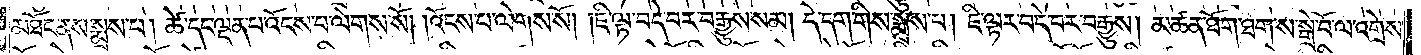མཐོང་ནས་སྨྲས་པ། ཚེ་དང་ལྡན་པ་འོངས་པ་ལེགས་སོ། །འོངས་པ་ལེགས་སོ། །ཇི་ལྟ་བདེ་བར་བརྒྱུས་སམ། དེ་དག་གིས་སྨྲས་པ། ཇི་ལྟར་བདེ་བར་བརྒྱུས། མཚན་ཐོག་ཐག་ས་སྒྲེ་བོ་ལ་འགྲེས་
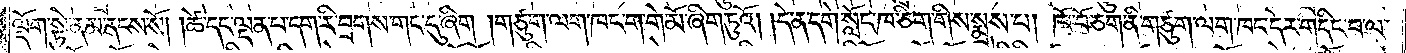ལྡོག་སྟེ་ནམ་ནངས་སོ། །ཚེ་དང་ལྡན་པ་དག་རི་བྲགས་གང་དུ་ཞིག །གཙུག་ལག་ཁང་གེ་མོ་ཞིག་ཏུའོ། །དེ་ན་དགེ་སློང་ཁ་ཅིག་གིས་སྨྲས་པ། ཁོ་བོ་ཅག་ནི་གཙུག་ལག་ཁང་དེར་གདིང་བ་ལ་
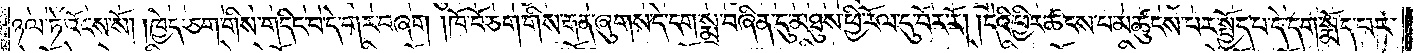ཉལ་ཏེ་འོངས་སོ། །ཁྱེད་ཅག་གིས་གདིང་བ་དེ་གར་བཞག །ཁོ་བོ་ཅག་གིས་རྒན་ཞུགས་དེ་དག་སྨྲ་བཞིན་དུ་མཐུས་ཕྱི་རོལ་དུ་བོར་རོ། །དེའི་ཕྱིར་ཚངས་པ་མཚུངས་པར་སྤྱོད་པ་དེ་དག་སྨོད་པར་
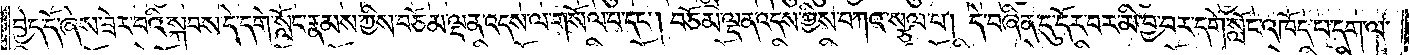བྱེད་དོ་ཞེས་ཟེར་བའི་སྐབས་དེ་དགེ་སློང་རྣམས་ཀྱིས་བཅོམ་ལྡན་འདས་ལ་གསོལ་པ་དང༌། བཅོམ་ལྡན་འདས་ཀྱིས་བཀའ་སྩལ་པ། དེ་བཞིན་དུ་དོར་བར་མི་བྱ་བར་དགེ་སློང་འཁོད་པ་དག་ལ་
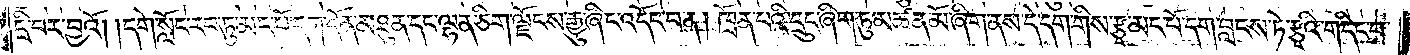དྲི་བར་བྱའོ། །དགེ་སློང་རབ་ཏུ་མང་པོ་དག་དོན་མཐུན་དང་ལྷན་ཅིག་ལྗོངས་རྒྱུ་ཞིང་འདོང་བ་ན། ཁྲོན་པའི་དྲུང་ཞིག་ཏུ་མཚན་མོ་ཞིག་ནས་དེ་དག་གིས་རྩྭ་མང་པོ་དག་བླངས་ཏེ་རྩྭའི་གདིང་བ་
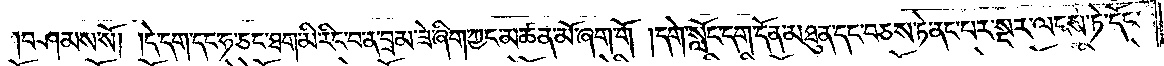བཤམས་སོ། །དེ་དག་དང་ཧ་ཅང་ཐག་མི་རིང་བ་ན་བྲམ་ཟེ་ཞིག་ཀྱང་མཚན་མོ་ཞག་གོ །དགེ་སློང་དག་དོན་མཐུན་དང་བཅས་ཏེ་ནང་པར་སྔར་ལངས་ཏེ་དོང་
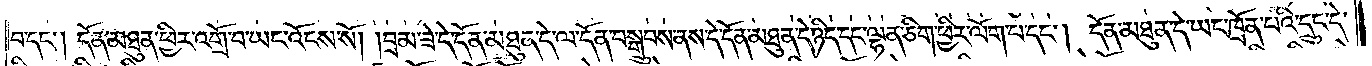བ་དང༌། དོན་མཐུན་ཕྱིར་འགྲོ་བ་ཡང་འོངས་སོ། །བྲམ་ཟེ་དེ་དོན་མཐུན་དེ་ལ་དོན་བསྒྲུབས་ནས་དེ་དོན་མཐུན་དེ་ཉིད་དང་ལྷན་ཅིག་ཕྱིར་ལོག་པ་དང༌། དོན་མཐུན་དེ་ཡང་ཁྲོན་པའི་དྲུང་དེ་
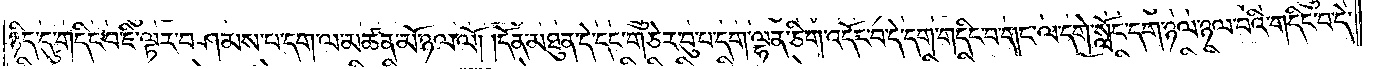ཉིད་དུ་གདིང་བ་ཇི་ལྟར་བཤམས་པ་དག་ལ་མཚན་མོ་ཉལ་ལོ། །དོན་མཐུན་དེ་དང་གཅེར་བུ་པ་དག་ལྷན་ཅིག་འདོང་བ་དེ་དག་གདིང་བ་གང་ལ་དགེ་སློང་དག་ཉལ་ཉལ་བའི་གདིང་བ་དེ་
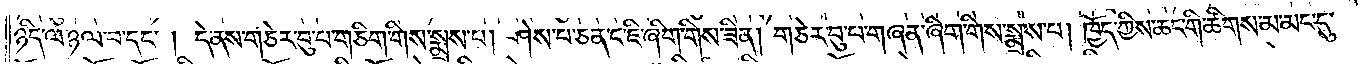ཉིད་ལ་ཉལ་བ་དང༌། དེ་ནས་གཅེར་བུ་པ་གཅིག་གིས་སྨྲས་པ། ཤེས་པ་ཅན་ང་ཇི་ཞིག་གིས་ཟིན། གཅེར་བུ་པ་གཞན་ཞིག་གིས་སྨྲས་པ། ཁྱོད་ཀྱིས་ཆང་གི་ཚིགས་མ་མང་དུ་
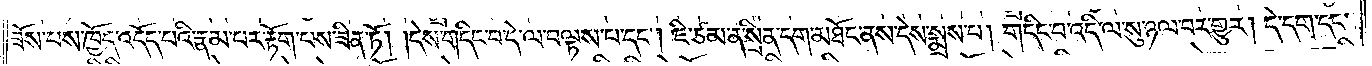ཟོས་པས་ཁྱོད་འདོད་པའི་རྣམ་པར་རྟོག་པས་ཟིན་ཏོ། །དེས་གདིང་བ་དེ་ལ་བལྟས་པ་དང༌། ཇི་ཙམ་ན་སྲིན་དག་མཐོང་ནས་དེས་སྨྲས་པ། གདིང་བ་འདི་ལ་སུ་ཉལ་བར་གྱུར། དེ་དག་དང་
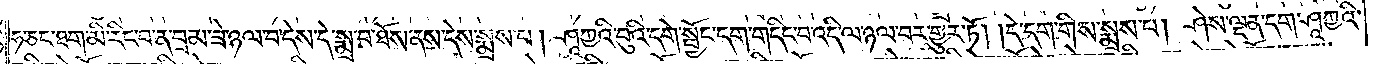ཧ་ཅང་ཐག་མི་རིང་བ་ན་བྲམ་ཟེ་ཉལ་བ་དེས་དེ་སྨྲ་པ་ཐོས་ནས་དེས་སྨྲས་པ། ཤཱཀྱའི་བུའི་དགེ་སྦྱོང་དག་གདིང་བ་འདི་ལ་ཉལ་བར་གྱུར་ཏོ། །དེ་དག་གིས་སྨྲས་པ། ཤེས་ལྡན་དག་ཤཱཀྱའི་
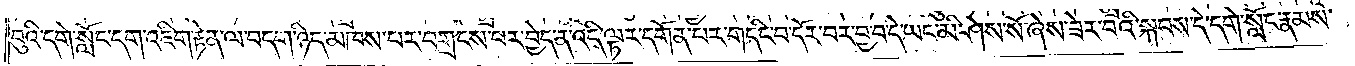བུའི་དགེ་སློང་དག་འཇིག་རྟེན་ལ་བདག་ཉིད་མཁས་པར་བགྲངས་པར་བྱེད་ན་འདི་ལྟར་དགོན་པར་གདིང་བ་དོར་བར་བྱ་བ་དེ་ཡང་མི་ཤེས་སོ་ཞེས་ཟེར་བའི་སྐབས་དེ་དགེ་སློང་རྣམས་
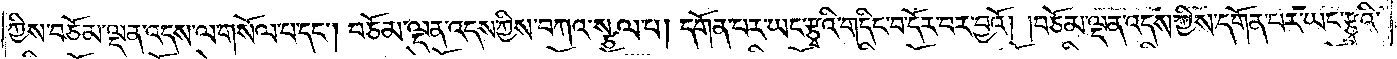གྱིས་བཅོམ་ལྡན་འདས་ལ་གསོལ་པ་དང༌། བཅོམ་ལྡན་འདས་ཀྱིས་བཀའ་སྩལ་པ། དགོན་པར་ཡང་རྩྭའི་གདིང་བ་དོར་བར་བྱའོ། །བཅོམ་ལྡན་འདས་ཀྱིས་དགོན་པར་ཡང་རྩྭའི་
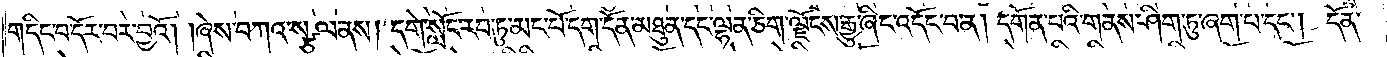གདིང་བ་དོར་བར་བྱའོ། །ཞེས་བཀའ་སྩལ་ནས། དགེ་སློང་རབ་ཏུ་མང་པོ་དག་དོན་མཐུན་དང་ལྷན་ཅིག་ལྗོངས་རྒྱུ་ཞིང་འདོང་བ་ན། དགོན་པའི་གནས་ཤིག་ཏུ་ཞག་པ་དང༌། དོན་
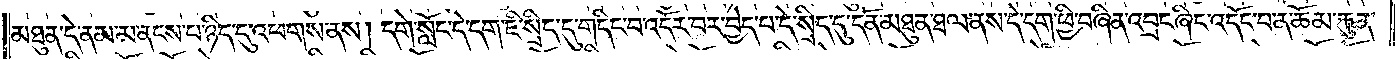མཐུན་དེ་ནམ་མ་ནངས་པ་ཉིད་དུ་འཕགས་ནས། དགེ་སློང་དེ་དག་ཇི་སྲིད་དུ་གདིང་བ་འདོར་བར་བྱེད་པ་དེ་སྲིད་དུ་དོན་མཐུན་ཐལ་ནས་དེ་དག་ཕྱི་བཞིན་འབྲང་ཞིང་འདོང་བ་ན་ཆོམ་རྐུན་
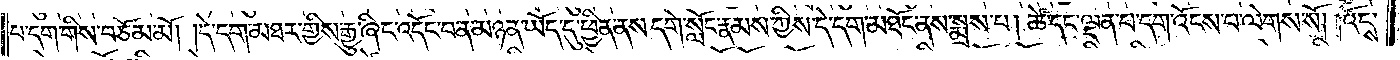པ་དག་གིས་བཅོམ་མོ། །དེ་དག་མཐར་གྱིས་རྒྱུ་ཞིང་འདོང་བ་ན་མཉན་ཡོད་དུ་ཕྱིན་ནས་དགེ་སློང་རྣམས་ཀྱིས་དེ་དག་མཐོང་ནས་སྨྲས་པ། ཚེ་དང་ལྡན་པ་དག་འོངས་པ་ལེགས་སོ། །འོངས་
